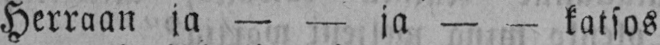Herraan ja — — ja — — katsos
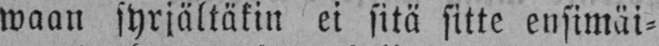waan syrjältäkin ei sitä sitte ensimäi-
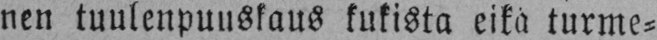nen tuulenpuuskaus kukista eikä turme-
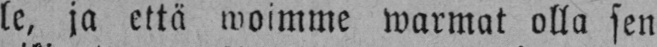le, ja että woimme warmat olla sen
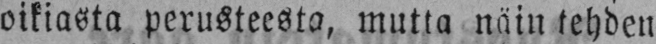oikiasta perusteesta, mutta näin tehden
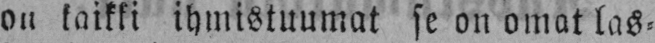on kaikki ihmistuumat se on omat las-
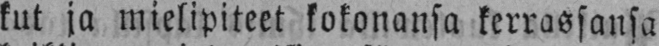kut ja mielipiteet kokonansa kerrassansa
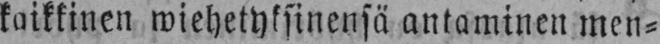kaikkinen wiehetyksinensä antaminen men-
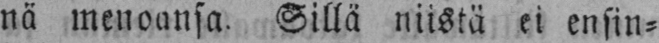nä menoansa. Sillä niistä ei ensin-
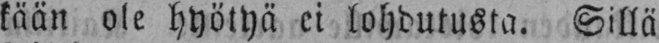kään ole hyötyä ei lohdutusta. Sillä
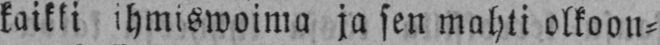kaikki ihmiswoima ja sen mahti olkoon-
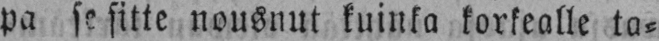pa se sitte nousnut kuinka korkealle ta-
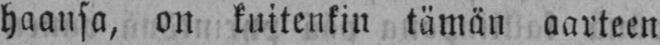haansa, on kuitenkin tämän aarteen
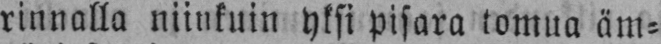rinnalla niinkuin yksi pisara tomua äm-
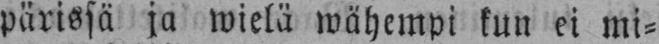pärissä ja wielä wähempi kun ei mi-
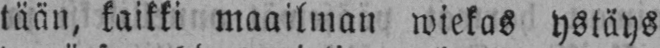tään, kaikki maailman wiekas ystäys
